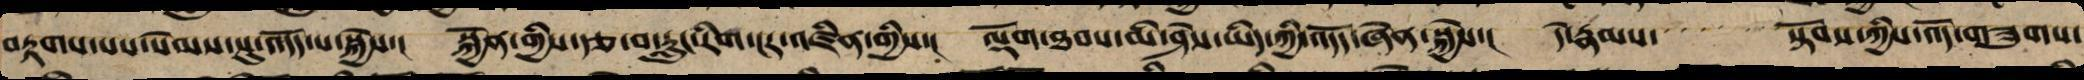བརྟགས་པས་སེམས་སུ་འདོད་པ་སྐྱེས་། སྐྱོན་གྱི་རྩ་བ་རླུང་རིག་ངར་འཛིན་གྱིས་། ལྡོག་ཐབས་མི་ཤེས་ཡིད་ཀྱི་འདོད་ཞེན་སྐྱེས་། དེ་རྣམས་སྟོབས་ཀྱིས་འོད་གཟུགས་
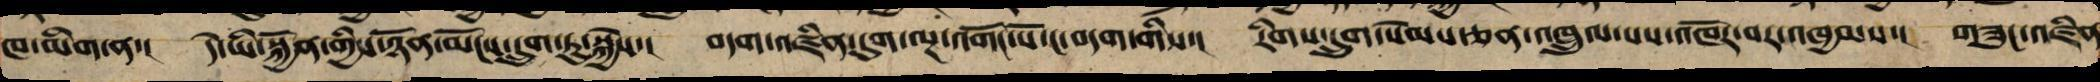ཁ་མིག་ན་། དེ་ཡི་སྐྱོན་གྱིས་ཉོན་མོངས་དྲུག་ཏུ་སྐྱེས་། བདག་འཛིན་དུག་ལྔ་འགོང་པོ་ང་བདག་གིས་། རིགས་དྲུག་སེམས་ཅན་འཁྲུལ་པས་འཁོར་བར་འཁྱམས་། གཟུང་འཛིན
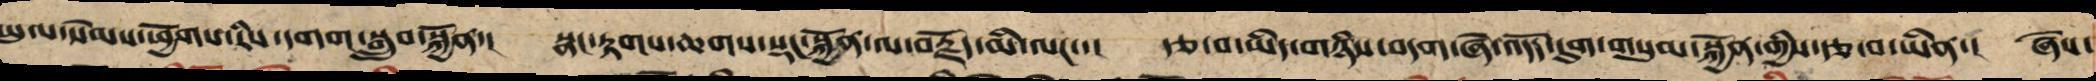ཡུལ་སེམས་ཕྱོགས་རིས་དགག་སྒྲུབ་སྐྱོན་། སྣང་རྟགས་ཆགས་སྡང་སྐྱོན་ལ་བརྗོད་མི་ལང་་། རྩ་བ་ཡིད་གཉིས་ང་བདག་ཞེ་འདོད་དུག་གསུམ་སྐྱོན་གྱི་རྩ་བ་ཡིན་། ཞེས་
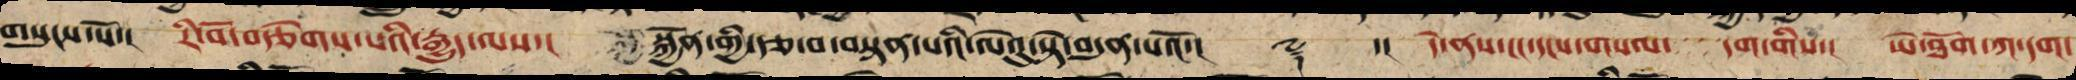གསུངས་སོ། །རི་བོ་བརྩེགས་པའི་རྒྱུད་ལས། སྐྱོན་གྱི་རྩ་བ་བསྟན་པའི་ལེའུ་སྟེ་བདུན་པའོ།། ༈  ་། དེ་ནས་ངང་དྭངས་གསལ་དག་གིས། ཡེ་ཐོག་ཀ་དག་
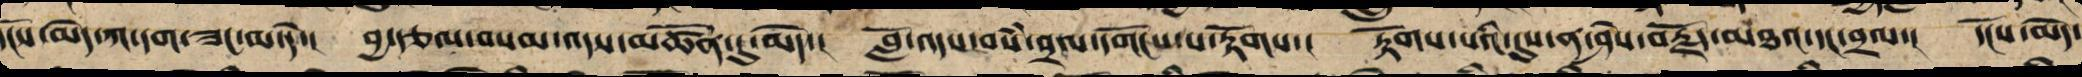དངོས་མེད་ཀ་དག་ཟང་མ་དེ་། བྱ་རྩལ་བསམ་འདས་མཚོན་དུ་མེད་། བློ་འདས་བསཾ་བྲལ་དགོངས་པ་རྟོགས་། རྟོགས་པའི་དུས་ན་ཤེས་བརྗོད་མཐའ་དང་བྲལ་། དངོས་མེད་
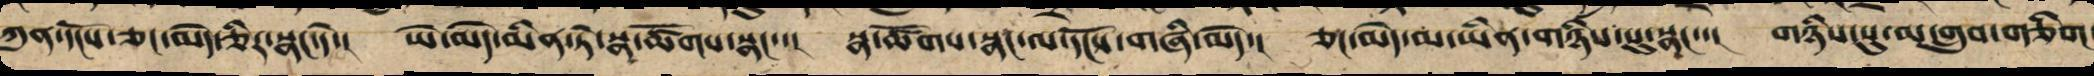ཀུན་དངོས་ཅང་མེད་ཅིར་སྣང་དེ་། ཡེ་མེད་མིན་ཏེ་སྣ་ཚོགས་སྣང་་། སྣ་ཚོགས་སྣང་ལ་དངོས་གཞི་མེད་། ཅང་མེད་མ་ཡིན་གཉིས་སུ་སྣང་་། གཉིས་སུ་མ་གྲུབ་གཅིག་
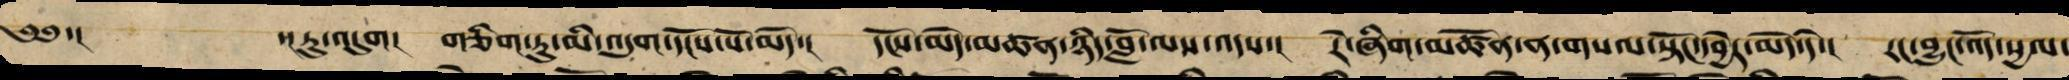༄༅་། ་།ཏུ་འདུག། གཅིག་ཏུ་མི་འདུག་དངོས་པོ་མེད་། དངོས་མེད་མཚན་ཉིད་བློ་ལས་འདས་། རེ་ཞིག་མཚོན་ན་གསལ་སྟོང་དབྱེར་མེད་དེ་། རང་བྱུང་འོད་སྱལ་
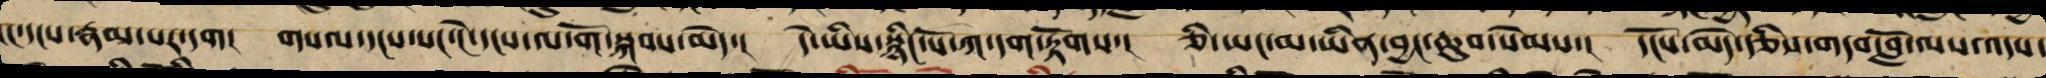ངང་དངས་རྣམ་པར་དག། གསལ་དངས་སང་དེ་དངས་ལ་གོ་སྐབས་མེད་། དེ་ཡིས་སྙིང་པོ་ཀ་དག་རྟོགས་། ཅི་ཡང་མ་ཡིན་བྱང་ཆུབ་སེམས་། དངོས་མེད་རྩིས་གདབ་བློ་ལས་འདས་
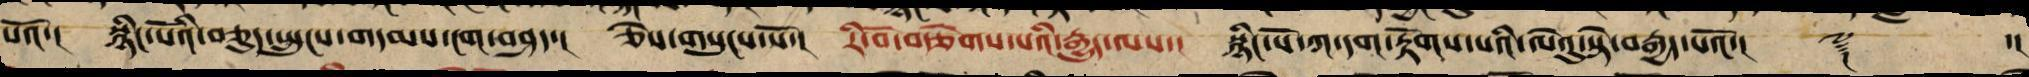པའོ་། སྙིང་པོའི་བཅུད་སྤུངས་གདམས་ངག་གནད་། ཅེས་གསུངས་སོ་། རི་བོ་བརྩེགས་པའི་རྒྱུད་ལས་། སྙིང་པོ་ཀ་དག་རྟོགས་པའི་ལེའུ་སྟེ་བརྒྱད་པའོ་།། ༈ ་།།
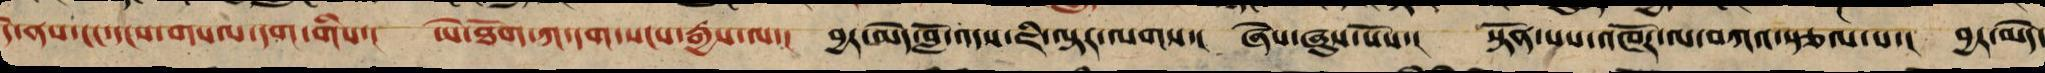དེ་ནས་ངང་དངས་གསལ་དག་གིས་། ཡེ་ཐོག་ཀ་དག་སངས་རྒྱས་ལ་། བྱར་མེད་བློ་འདས་ཇི་ལྟར་ལགས་། ཞེས་ཞུས་པོས་། སྟོན་པས་འཁོར་ལ་བཀའ་སྩལ་པ་། བྱར་མེད་
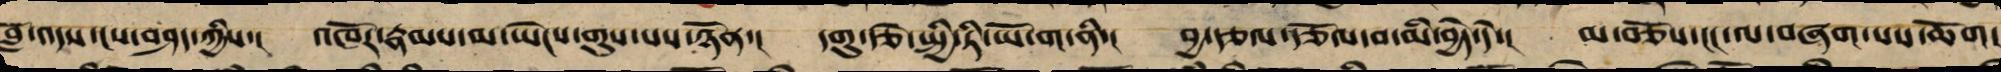བློ་འདས་ངས་བཤད་ཀྱིས་། འཁོར་རྣམས་མ་ཡེངས་གུས་པས་ཉོན་། དགུ་རྩེ་སྤྱི་ཏི་ཡོ་ག་ནི་། བྱ་རྩལ་རྩོལ་བ་མི་བྱེད་དེ་། མ་བཅོས་ངང་ལ་བཞག་པས་ཆོག།
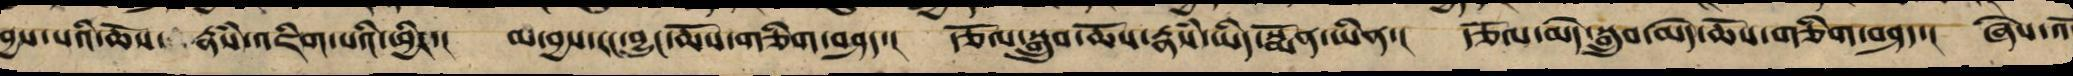བྱས་པའི་ཆོས་ རྣཾས་འཇིག་པའི་ཕྱིར་། མ་བྱས་རང་བྱུང་ཆོས་གཅིག་བཤད་། རྩོལ་སྒྲུབ་ཆོས་རྣཾས་ཡིད་སྨོན་ཡིན་། རྩོལ་མེད་སྒྲུབ་མེད་ཆོས་གཅིག་བཤད་། ཞེས་འོ
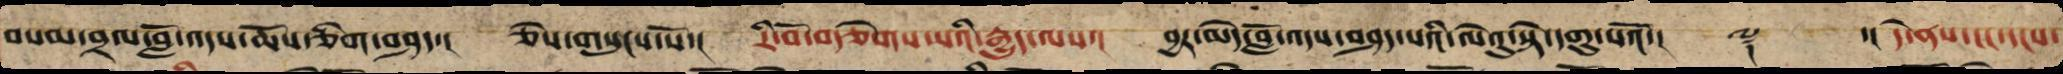བསམ་བྲལ་བློ་འདས་ཆོས་ཅིག་བཤད་། ཅེས་གསུངས་སོ་། རི་བོ་བརྩེགས་པའི་རྒྱུད་ལས་། བྱར་མེད་བློ་འདས་བཤད་པའི་ལེའུ་སྟེ་དགུ་པའོ་།། ༈ ་། དེ་ནས་ངང་དངས་
